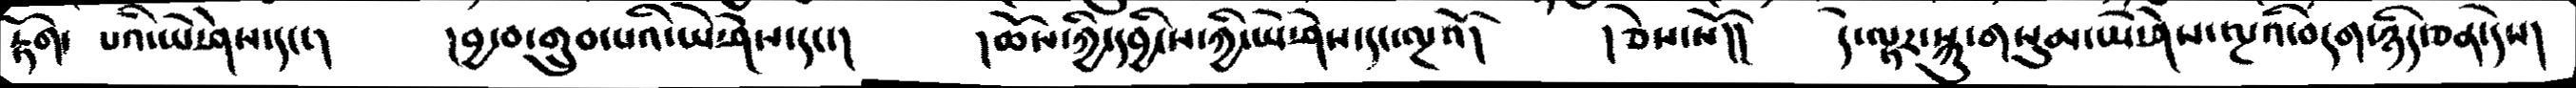རྟོག་  པའི་ཡེ་ཤེས་དང་།  །བྱ་བ་གྲུབ་པའི་ཡེ་ཤེས་དང་།   །ཆོས་ཀྱི་དབྱིངས་ཀྱི་ཡེ་ཤེས་དང་ལྔའོ།   །ཅེས་སོ།།   དེ་ལྟར་སྐུ་གསུམ་ཡེ་ཤེས་ལྔའི་བདག་ཉིད་ཅན་དེས།
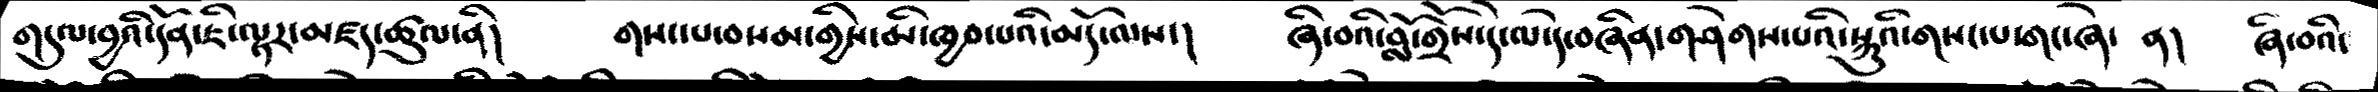གདུལ་བྱའི་དོན་ཇི་ལྟར་མཛད་ཚུལ་ནི།  གསང་པ་བམས་གྱིས་མི་ཁྱབ་པའི་མདོ་ལས་།   ཞི་བའི་བློ་གྲོས་དེ་ལ་དེ་བཞིན་གཤེགས་པའི་སྐུའི་གསང་པ་གང་ཞེ་  ན།  ཞི་བའི་
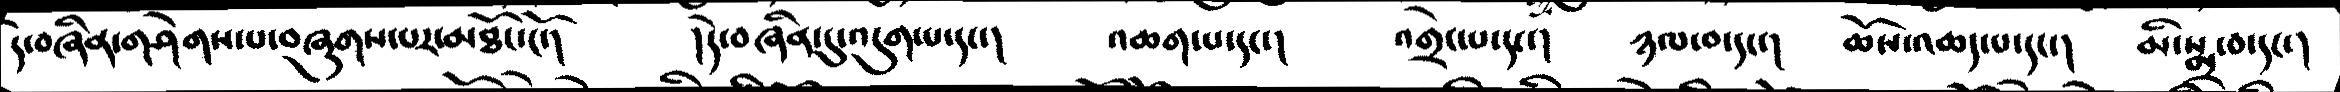དེ་བཞིན་གཤེགས་པ་བཞུགས་པར་མཐོང་ངོ་།  །དེ་བཞིན་དུ་འདུག་པ་དང་།  འཆག་པ་དང་།  འགྲེང་པ་དང་།  ཉལ་བ་དང་།  ཆོས་འཆད་པ་དང་།   མི་སྨྲ་བ་དང་།
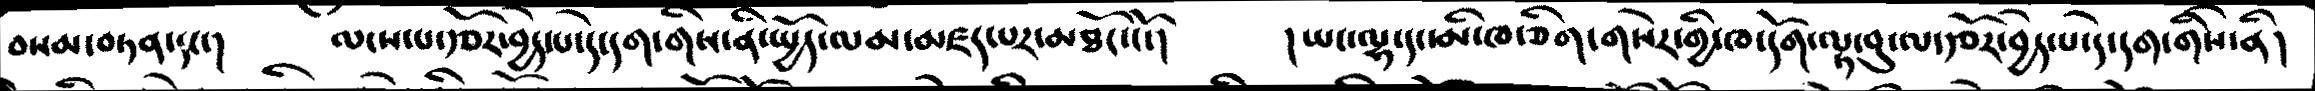བསམ་བཏན་དང་།  ལངས་པ་རྩོར་བྱེད་པ་དེ་དག་གིས་ནི་སྤྱོད་ལམ་མཛད་པར་མཐོང་ངོ་།   །ཡང་ལྷ་དང་མི་ཁ་ཅིག་གསེར་གྱི་་ཁདདོག་ལྟ་བུ་ལ་རྩོར་བྱེད་པ་དེ་དག་གིས་ནི།
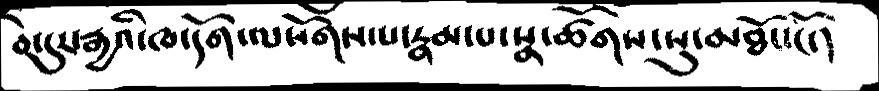བེ་དུར་རྒྱའི་ཁ་དོག་ལསོགས་རྣམ་པ་སྣ་ཚོགས་སུ་མཐོང་ངོ་།
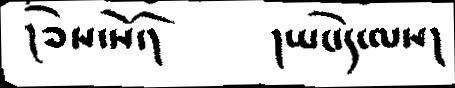།ཅེས་སོ་།  །ཡང་དེ་ལས།
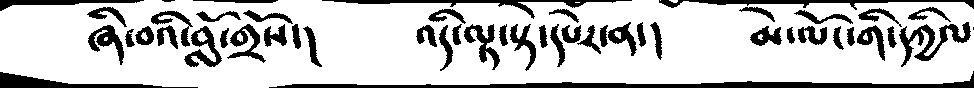ཞི་བའི་བློ་གྲོས་།         འདི་ལྟ་སྟེ་དཔེར་ན་།     མེ་ལོང་གི་དཀྱིལ
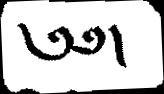༅༅།
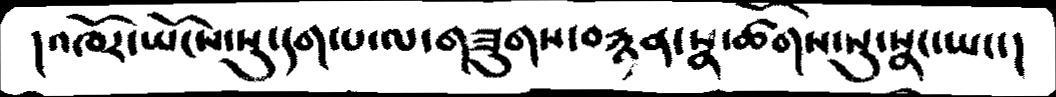།འཁོར་ཡོངས་སུ་དག་པ་ལ་་གཟུགས་བརྙན་སྣ་ཚོགས་སུ་སྣང་ཡང་།
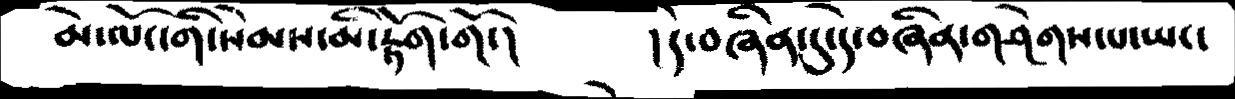མེ་ལོང་གི་སེམས་མི་རྟོག་གོ་།        ། དེ་བཞིན་དུ་དེ་བཞིན་གཤེགས་པ་ཡང་
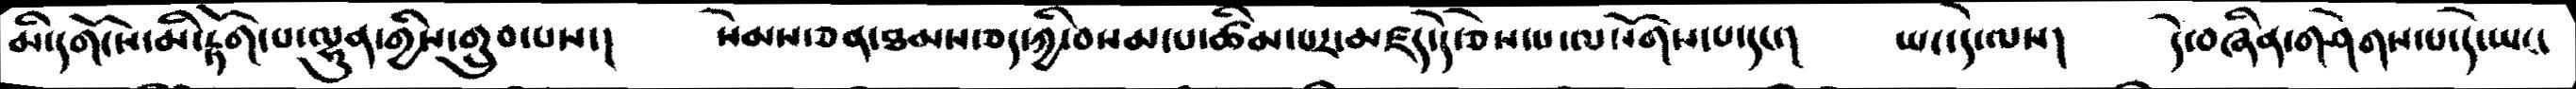མི་དགོས་མི་རྟོག་པ་ལྷུན་གྱིས་གྲུབ་པས་།      སེམས་ཅན་ཐམས་ཅད་ཀྱི་བསམ་པ་ཚིམ་པར་མཛད་དེ་ཅེས་པ་ལསོགས་དང་།     ཡང་དེ་ལས།   དེ་བཞིན་གཤེགས་པ་དེ་ཡང་
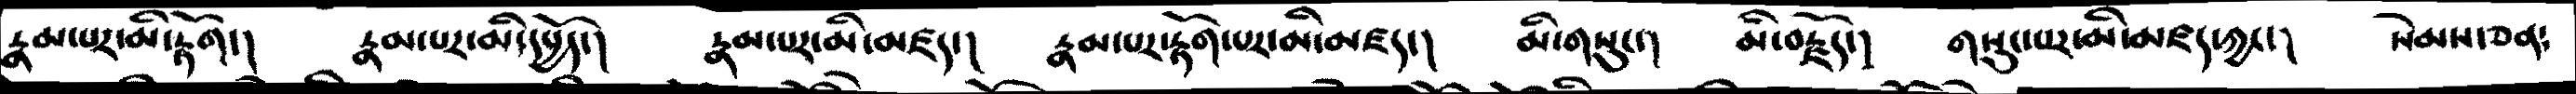རྣམ་པར་མི་རྟོག་།    རྣམ་པར་མི་དཔྱོད་།   རྣམ་པར་མི་མཛད་།   རྣམ་པར་རྟོག་པར་མི་མཛད་།  མི་གསུང་།   མི་བརྗོད་།    གསུང་པར་མི་མཛད་ཀྱང་།     སེམས་ཅན་
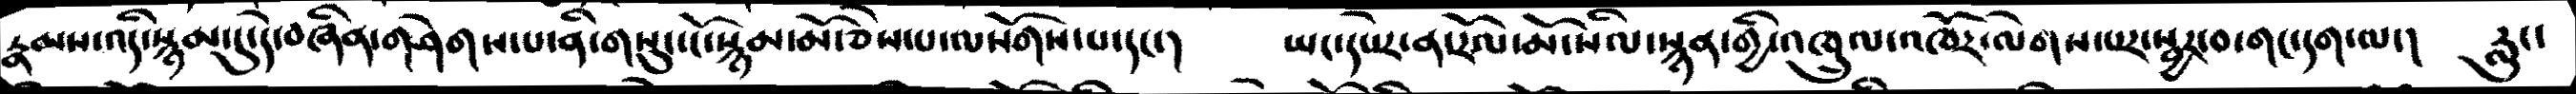རྣམས་འདི་སྙམ་དུ་དེ་བཞིན་གཤེགས་པ་ནི་གསུང་ངོ་སྙམ་མོ་ཅེས་པ་ལསོགས་པ་དང་།    ཡང་དཔེར་ན་རོལ་མོ་སིལ་སྙན་གྱི་འཁྲུལ་འཁོར་ལེགས་པར་སྦྱར་བ་གང་དག་ལ་།  རླུང་
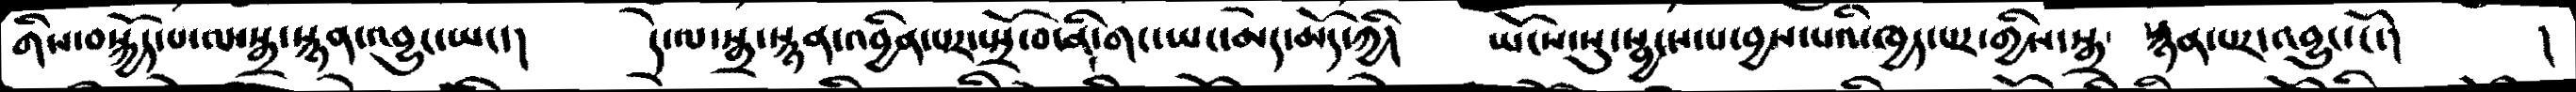གིས་བསྐྱོད་པ་ལ་སྒྲ་སྙན་འབྱུང་ཡང་།     དེ་ལ་སྒྲ་སྙན་འབྱིན་པར་སྤྲོ་བ་ནི་གང་ཡང་མེད་མོད་ཀྱི།       ཡོངས་སུ་སྦྱངས་པ་བྱས་པའི་ཁྱད་པར་གྱིས་སྒྲ་  སྙན་པར་འབྱུང་ངོ་།
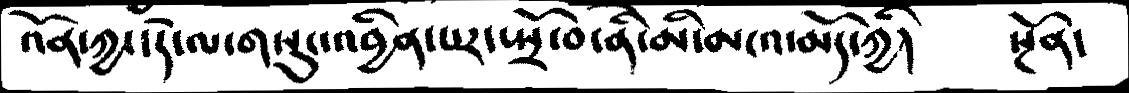འོན་ཀྱང་དེ་ལ་གསུང་འབྱིན་པར་སྤྲོ་བ་ནི་མི་མངའ་མོད་ཀྱི།       སྔོན་
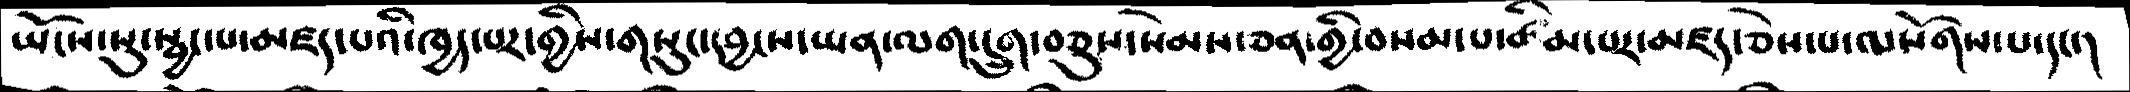ཡོངས་སུ་སྦྱང་པ་མཛད་པའི་ཁྱད་པར་གྱིས་གསུང་དབྱངས་ཡན་ལག་དྲུག་བཅུས་སེམས་ཅན་གྱི་བསམ་པ་ཚིམ་པར་མཛད་ཅེས་པ་ལསོགས་པ་དང་།
